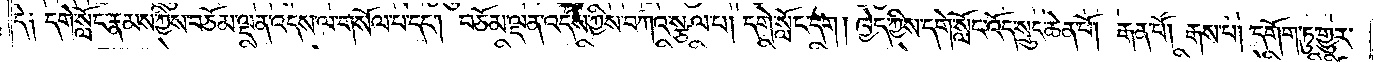དེ༑ དགེ་སློང་རྣམས་ཀྱིས་བཅོམ་ལྡན་འདས་ལ་གསོལ་པ་དང༌། བཅོམ་ལྡན་འདས་ཀྱིས་བཀའ་སྩལ་པ། དགེ་སློང་དག །ཁྱེད་ཀྱིས་དགེ་སློང་འོད་སྲུང་ཆེན་པོ། རྒན་པོ། རྒས་པ། དགོག་ཏུ་གྱུར་
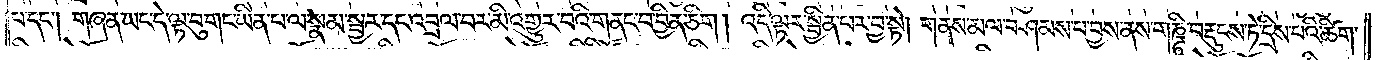པ་དང༌། གཞན་ཡང་དེ་ལྟ་བུ་གང་ཡིན་པ་ལ་སྣམ་སྦྱར་དང་འབྲལ་བར་མི་འགྱུར་བའི་གནང་བ་བྱིན་ཅིག །འདི་ལྟར་སྦྱིན་པར་བྱ་སྟེ། གནས་མལ་བཤམས་པ་བྱས་ནས་གཎྜཱི་བརྡུངས་ཏེ་དྲིས་པའི་ཚིག་
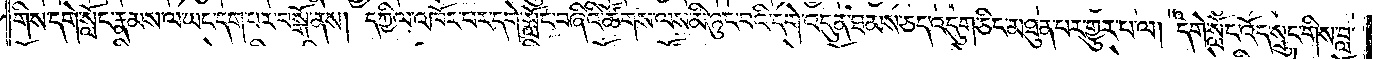གིས་དགེ་སློང་རྣམས་ལ་ཡང་དག་པར་བསྒོ་ནས། དཀྱིལ་འཁོར་པར་དགེ་སློང་བཞིའི་ཚོགས་ལས་མི་ཉུང་བའི་དགེ་འདུན་ཐམས་ཅད་འདུག་ཅིང་མཐུན་པར་གྱུར་པ་ལ། དགེ་སློང་འོད་སྲུང་གིས་བླ་
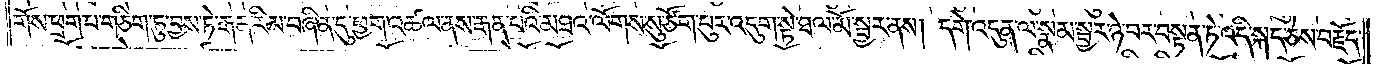གོས་ཕྲག་པ་གཅིག་ཏུ་བྱས་ཏེ་རྒན་རིམ་བཞིན་དུ་ཕྱག་འཚལ་ནས་རྒན་པའི་མཐའ་ལོགས་སུ་ཙོག་པུར་འདུག་སྟེ་ཐལ་མོ་སྦྱར་ནས། དགེ་འདུན་ལ་སྣམ་སྦྱར་ཉེ་བར་བསྟན་ཏེ་འདི་སྐད་ཅེས་བརྗོད་
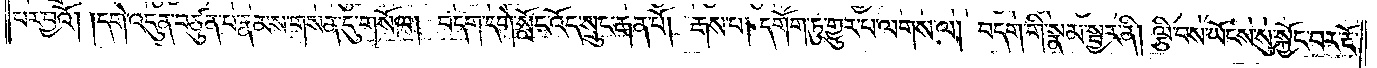པར་བྱའོ། །དགེ་འདུན་བཙུན་པ་རྣམས་གསན་དུ་གསོལ། བདག་དགེ་སློང་འོད་སྲུང་རྒན་པོ། རྒས་པ། དགོག་ཏུ་གྱུར་པ་ལགས་ལ། བདག་གི་སྣམ་སྦྱར་ནི། ལྕི་བས་ཡོངས་སུ་སྐྱོང་བར་རྡོ་
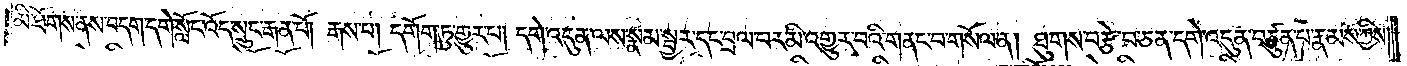མི་ཐོགས་ནས་བདག་དགེ་སློང་འོད་སྲུང་རྒན་པོ། རྒས་པ། དགོག་ཏུ་གྱུར་པ། དགེ་འདུན་ལས་སྣམ་སྦྱར་དང་བྲལ་བར་མི་འགྱུར་བའི་གནང་བ་གསོལ་ན། ཐུགས་བརྩེ་བ་ཅན་དགེ་འདུན་བཙུན་པ་རྣམས་ཀྱིས་
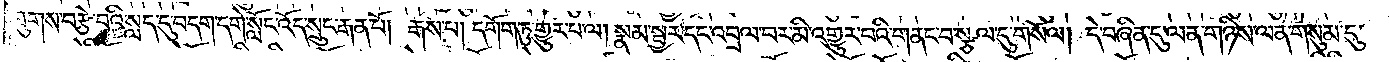ཐུགས་བརྩེ་བའི་སླད་དུ་བདག་དགེ་སློང་འོད་སྲུང་རྒན་པོ། རྒས་པ། དགོག་ཏུ་གྱུར་པ་ལ། སྣམ་སྦྱར་དང་འབྲལ་བར་མི་འགྱུར་བའི་གནང་བ་སྩལ་དུ་གསོལ། དེ་བཞིན་དུ་ལན་གཉིས་ལན་གསུམ་དུ་
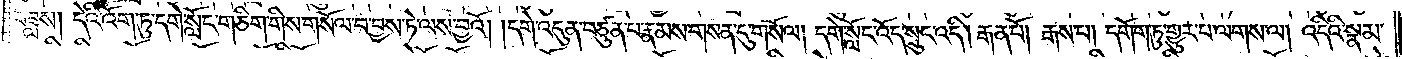བཟླས། དེའི་འོག་ཏུ་དགེ་སློང་གཅིག་གིས་གསོལ་བ་བྱས་ཏེ་ལས་བྱའོ། །དགེ་འདུན་བཙུན་པ་རྣམས་གསན་དུ་གསོལ། དགེ་སློང་འོད་སྲུང་འདི། རྒན་པོ། རྒས་པ། དགོག་ཏུ་གྱུར་པ་ལགས་ལ། འདིའི་སྣམ་
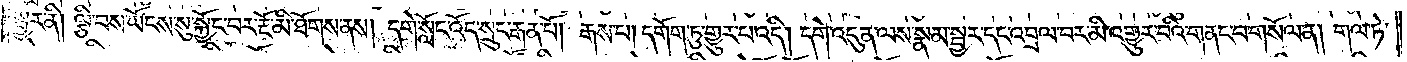སྦྱར་ནི། ལྕི་བས་ཡོངས་སུ་སྐྱོང་བར་རྔོ་མི་ཐོགས་ནས། དགེ་སློང་འོད་སྲུང་རྒན་པོ། རྒས་པ། དགོག་ཏུ་གྱུར་པ་འདི། དགེ་འདུན་ལས་སྣམ་སྦྱར་དང་འབྲལ་བར་མི་འགྱུར་བའི་གནང་བ་གསོལ་ན། གལ་ཏེ་
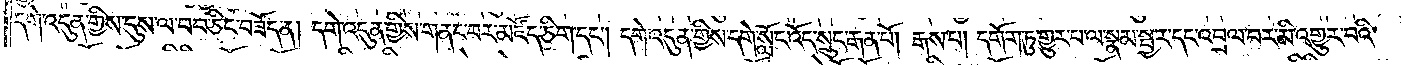དགེ་འདུན་གྱིས་དུས་ལ་བབ་ཅིང་བཟོད་ན། དགེ་འདུན་གྱིས་གནང་བར་མཛོད་ཅིག་དང༌། དགེ་འདུན་གྱིས་དགེ་སློང་འོད་སྲུང་རྒན་པོ། རྒས་པ། དགོག་ཏུ་གྱུར་པ་ལ་སྣམ་སྦྱར་དང་འབྲལ་བར་མི་འགྱུར་བའི་
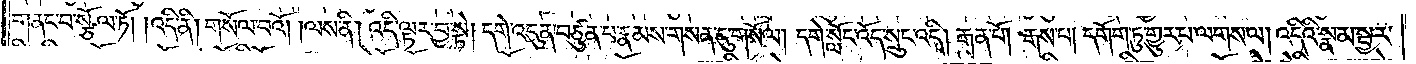གནང་བ་སྩོལ་ཏོ། །འདི་ནི། གསོལ་བའོ། །ལས་ནི། འདི་ལྟར་བྱ་སྟེ། དགེ་འདུན་བཙུན་པ་རྣམས་གསན་དུ་གསོལ། དགེ་སློང་འོད་སྲུང་འདི། རྒན་པོ། རྒས་པ། དགོག་ཏུ་གྱུར་པ་ལ་གསལ། འདིའི་སྣམ་སྦྱར་
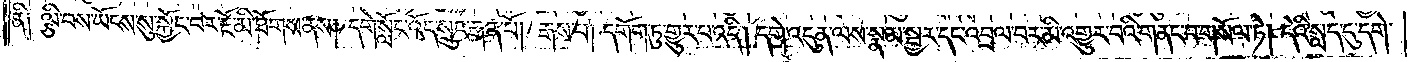ནི༑ ལྕི་བས་ཡོངས་སུ་སྐྱོང་པར་རྔོ་མི་ཐོགས་ནས། དགེ་སློང་འོད་སྲུང་རྒན་པོ། རྒས་པ། དགོག་ཏུ་གྱུར་པ་འདི། དགེ་འདུན་ལས་སྣམ་སྦྱར་དང་འབྲལ་བར་མི་འགྱུར་བའི་གནང་བ་གསོལ་ཏེ། དེའི་སླད་དུ་དགེ་
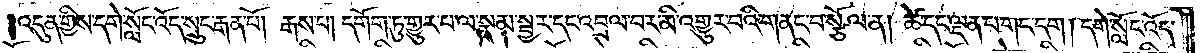འདུན་གྱིས་དགེ་སློང་འོད་སྲུང་རྒན་པོ། རྒས་པ། དགོག་ཏུ་གྱུར་པ་ལ་སྣམ་སྦྱར་དང་འབྲལ་བར་མི་འགྱུར་བའི་གནང་བ་སྩོལ་ན། ཚེ་དང་ལྡན་པ་གང་དག །དགེ་སློང་འོད་
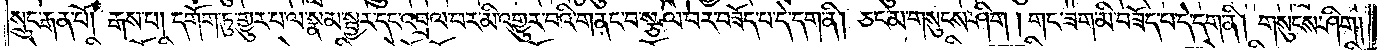སྲུང་རྒན་པོ། རྒས་པ། དགོག་ཏུ་གྱུར་པ་ལ་སྣམ་སྦྱར་དང་འབྲལ་བར་མི་འགྱུར་བའི་གནང་བ་སྩལ་བར་བཟོད་པ་དེ་དག་ནི། ཅང་མ་གསུངས་ཤིག །གང་ཟག་མི་བཟོད་པ་དེ་དག་ནི། གསུངས་ཤིག།
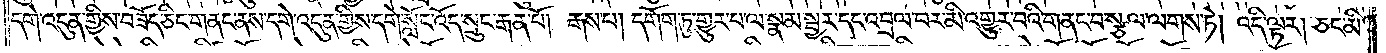དགེ་འདུན་གྱིས་བཟོད་ཅིང་གནང་ནས་དགེ་འདུན་གྱིས་དགེ་སློང་འོད་སྲུང་རྒན་པོ། རྒས་པ། དགོག་ཏུ་གྱུར་པ་ལ་སྣམ་སྦྱར་དང་འབྲལ་བར་མི་འགྱུར་བའི་གནང་བ་སྩལ་ལགས་ཏེ། འདི་ལྟར། ཅང་མི་
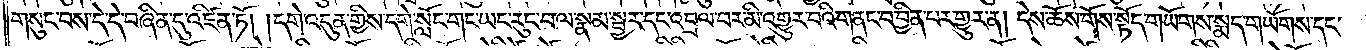གསུང་བས་དེ་དེ་བཞིན་དུ་འཛིན་ཏོ། །དགེ་འདུན་གྱིས་དགེ་སློང་གང་ཡང་རུང་བ་ལ་སྣམ་སྦྱར་དང་འབྲལ་བར་མི་འགྱུར་བའི་གནང་བ་བྱིན་པར་གྱུར་ན། དེས་ཆོས་གོས་སྟོད་གཡོགས་སྨད་གཡོགས་དང་
